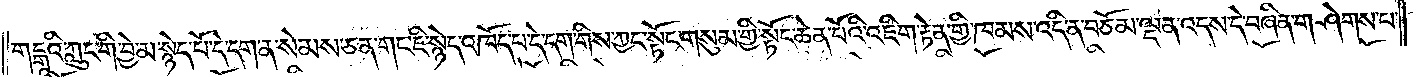གངྒཱའི་ཀླུང་གི་བྱེ་མ་སྙེད་པོ་དེ་དག་ན་སེམས་ཅན་གང་ཇི་སྙེད་འཁོད་པ་དེ་དག་གིས་ཀྱང་སྟོང་གསུམ་གྱི་སྟོང་ཆེན་པོའི་འཇིག་རྟེན་གྱི་ཁམས་འདི་ན་བཅོམ་ལྡན་འདས་དེ་བཞིན་གཤེགས་པ་
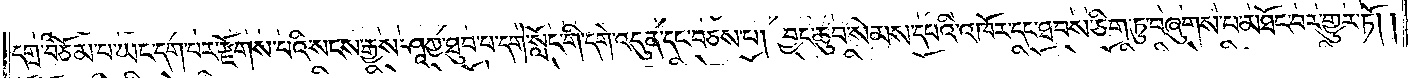དགྲ་བཅོམ་པ་ཡང་དག་པར་རྫོགས་པའི་སངས་རྒྱས་ཤཱཀྱ་ཐུབ་པ་དགེ་སློང་གི་དགེ་འདུན་དང་བཅས་པ། བྱང་ཆུབ་སེམས་དཔའི་འཁོར་དང་ཐབས་ཅིག་ཏུ་བཞུགས་པ་མཐོང་བར་གྱུར་ཏོ། །
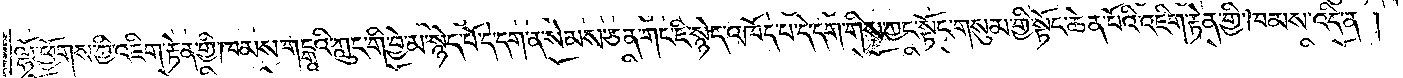ལྷོ་ཕྱོགས་ཀྱི་འཇིག་རྟེན་གྱི་ཁམས་གངྒཱའི་ཀླུང་གི་བྱེ་མ་སྙིང་པོ་དེ་དག་ན་སེམས་ཅན་གང་ཇི་སྙེད་འཁོད་པ་དེ་དག་གིས་ཀྱང་སྟོང་གསུམ་གྱི་སྟོང་ཆེན་པོའི་འཇིག་རྟེན་གྱི་ཁམས་འདི་ན་།
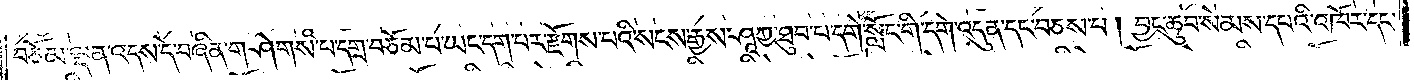བཅོམ་ལྡན་འདས་དེ་བཞིན་གཤེགས་པ་དགྲ་བཅོམ་པ་ཡང་དག་པར་རྫོགས་པའི་སངས་རྒྱས་ཤཱཀྱ་ཐུབ་པ་དགེ་སློང་གི་དགེ་འདུན་དང་བཅས་པ། བྱང་ཆུབ་སེམས་དཔའི་འཁོར་དང་
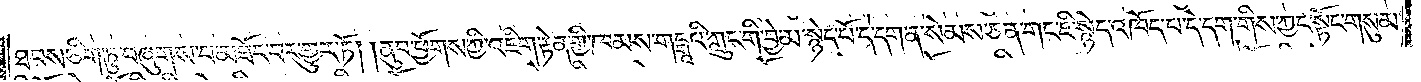ཐབས་ཅིག་ཏུ་བཞུགས་པ་མཐོང་བར་གྱུར་ཏོ། །ནུབ་ཕྱོགས་ཀྱི་འཇིག་རྟེན་གྱི་ཁམས་གངྒཱའི་ཀླུང་གི་བྱེ་མ་སྙེད་པོ་དེ་དག་ན་སེམས་ཅན་གང་ཇི་སྙེད་འཁོད་པ་དེ་དག་གིས་ཀྱང་སྟོང་གསུམ་
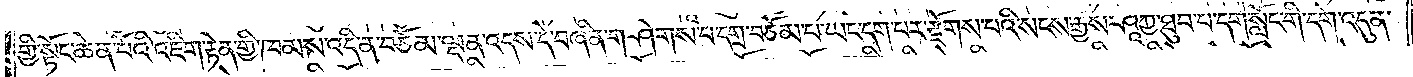གྱི་སྟོང་ཆེན་པོའི་འཇིག་རྟེན་གྱི་ཁམས་འདི་ན་བཅོམ་ལྡན་འདས་དེ་བཞིན་གཤེགས་པ་དགྲ་བཅོམ་པ་ཡང་དག་པར་རྫོགས་པའི་སངས་རྒྱས་ཤཱཀྱ་ཐུབ་པ་དགེ་སློང་གི་དགེ་འདུན་
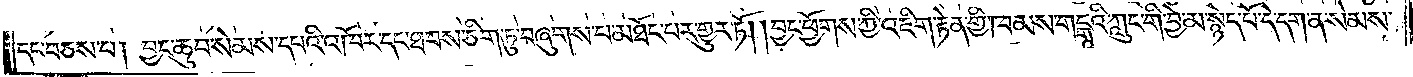དང་བཅས་པ། བྱང་ཆུབ་སེམས་དཔའི་འཁོར་དང་ཐབས་ཅིག་ཏུ་བཞུགས་པ་མཐོང་པར་གྱུར་ཏོ། །བྱང་ཕྱོགས་ཀྱི་འཇིག་རྟེན་གྱི་ཁམས་གངྒཱའི་ཀླུང་གི་བྱེ་མ་སྙེད་པོ་དེ་དག་ན་སེམས་
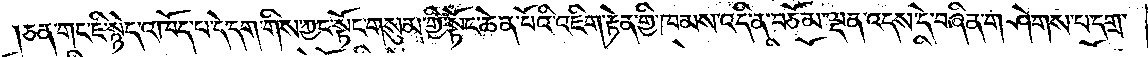ཅན་གང་ཇི་སྙེད་འཁོད་པ་དེ་དག་གིས་ཀྱང་སྟོང་གསུམ་གྱི་སྟོང་ཆེན་པོའི་འཇིག་རྟེན་གྱི་ཁམས་འདི་ན་བཅོམ་ལྡན་འདས་དེ་བཞིན་གཤེགས་པ་དགྲ་
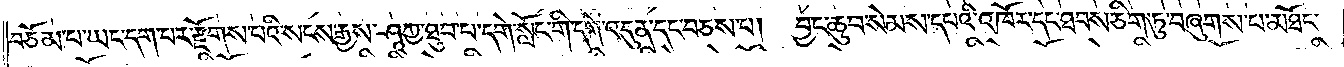བཅོམ་པ་ཡང་དག་པར་རྫོགས་པའི་སངས་རྒྱས་ཤཱཀྱ་ཐུབ་པ་དགེ་སློང་གི་དགེ་འདུན་དང་བཅས་པ། བྱང་ཆུབ་སེམས་དཔའི་འཁོར་དང་ཐབས་ཅིག་ཏུ་བཞུགས་པ་མཐོང་
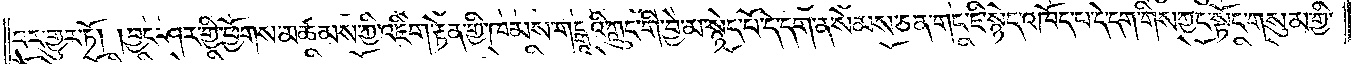བར་གྱུར་ཏོ། །བྱང་ཤར་གྱི་ཕྱོགས་མཚམས་ཀྱི་འཇིག་རྟེན་གྱི་ཁམས་གངྒཱའི་ཀླུང་གི་བྱེ་མ་སྙེད་པོ་དེ་དག་ན་སེམས་ཅན་གང་ཇི་སྙེད་འཁོད་པ་དེ་དག་གིས་ཀྱང་སྟོང་གསུམ་གྱི་
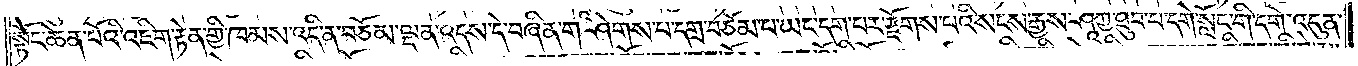སྟོང་ཆེན་པོའི་འཇིག་རྟེན་གྱི་ཁམས་འདི་ན་བཅོམ་ལྡན་འདས་དེ་བཞིན་གཤེགས་པ་དགྲ་བཅོམ་པ་ཡང་དག་པར་རྫོགས་པའི་སངས་རྒྱས་ཤཱཀྱ་ཐུབ་པ་དགེ་སློང་གི་དགེ་འདུན་
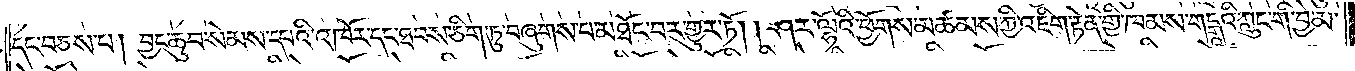དང་བཅས་པ། བྱང་ཆུབ་སེམས་དཔའི་འཁོར་དང་ཐབས་ཅིག་ཏུ་བཞུགས་པ་མཐོང་བར་གྱུར་ཏོ། །ཤར་ལྷོའི་ཕྱོགས་མཚམས་ཀྱི་འཇིག་རྟེན་གྱི་ཁམས་གངྒཱའི་ཀླུང་གི་བྱེ་མ་
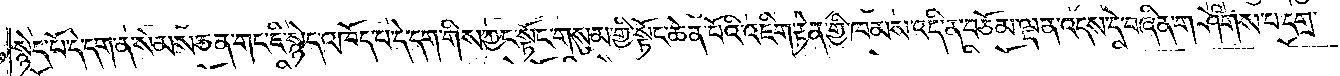སྙེད་པོ་དེ་དག་ན་སེམས་ཅན་གང་ཇི་སྙེད་འཁོད་པ་དེ་དག་གིས་ཀྱང་སྟོང་གསུམ་གྱི་སྟོང་ཆེན་པོའི་འཇིག་རྟེན་གྱི་ཁམས་འདི་ན་བཅོམ་ལྡན་འདས་དེ་བཞིན་གཤེགས་པ་དགྲ་
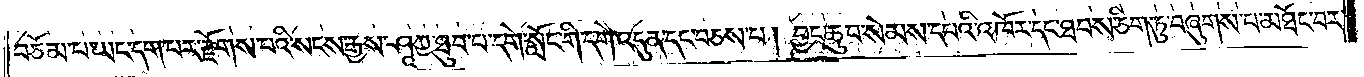བཅོམ་པ་ཡང་དག་པར་རྫོགས་པའི་སངས་རྒྱས་ཤཱཀྱ་ཐུབ་པ་དགེ་སློང་གི་དགེ་འདུན་དང་བཅས་པ། བྱང་ཆུབ་སེམས་དཔའི་འཁོར་དང་ཐབས་ཅིག་ཏུ་བཞུགས་པ་མཐོང་བར་
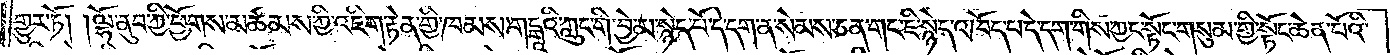གྱུར་ཏོ། །ལྷོ་ནུབ་ཀྱི་ཕྱོགས་མཚམས་ཀྱི་འཇིག་རྟེན་གྱི་ཁམས་གངྒཱའི་ཀླུང་གི་བྱེ་མ་སྙེད་པོ་དེ་དག་ན་སེམས་ཅན་གང་ཇི་སྙེད་འཁོད་པ་དེ་དག་གིས་ཀྱང་སྟོང་གསུམ་གྱི་སྟོང་ཆེན་པོའི་
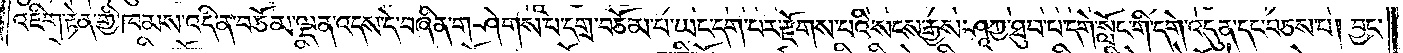འཇིག་རྟེན་གྱི་ཁམས་འདི་ན་བཅོམ་ལྡན་འདས་དེ་བཞིན་གཤེགས་པ་དགྲ་བཅོམ་པ་ཡང་དག་པར་རྫོགས་པའི་སངས་རྒྱས་ཤཱཀྱ་ཐུབ་པ་དགེ་སློང་གི་དགེ་འདུན་དང་བཅས་པ། བྱང་
